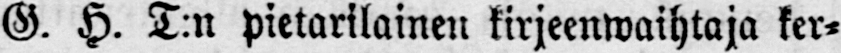G. H. T:n pietarilainen kirjeenwaihtaja ker-
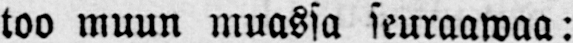too muun muassa seuraawaa:
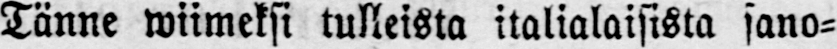Tänne wiimeksi tulleista italialaisista sano-
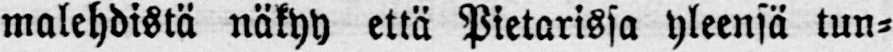malehdistä näkyy että Pietarissa yleensä tun-
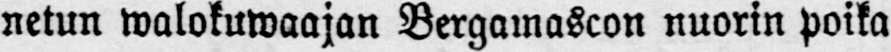netun walokuwaajan Bergamascon nuorin poika
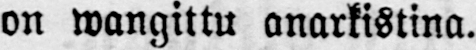on wangittu anarkistina.
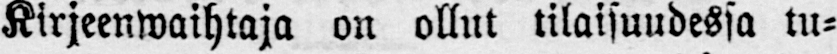Kirjeenwaihtaja on ollut tilaisuudessa tu-
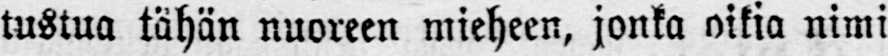tustua tähän nuoreen mieheen, jonka oikia nimi
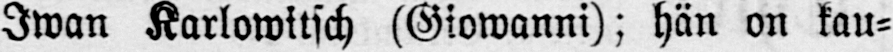Iwan Karlowitsch (Giowanni); hän on kau-
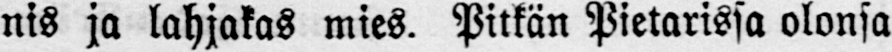nis ja lahjakas mies. Pitkän Pietarissa olonsa
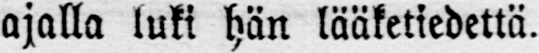ajalla luki hän lääketiedettä.
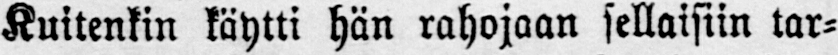Kuitenkin käytti hän rahojaan sellaisiin tar-
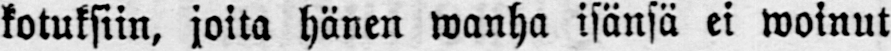kotuksiin, joita hänen wanha isänsä ei woinut
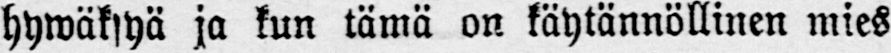hywäksyä ja kun tämä on käytännöllinen mies
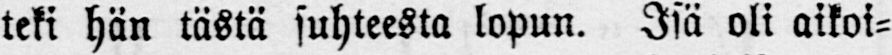teki hän tästä suhteesta lopun. Isä oli aikoi-
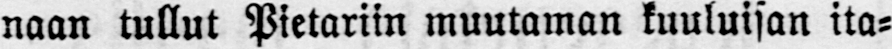naan tullut Pietariin muutaman kuuluisan ita-
